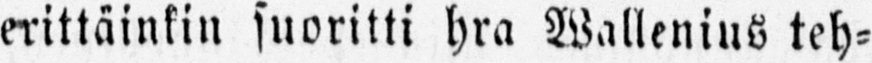erittäinkin suoritti hra Wallenius teh-
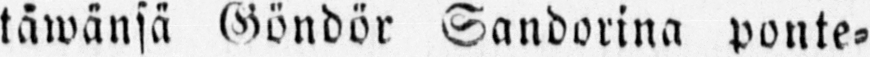täwänsä Göndör Sandorina ponte-
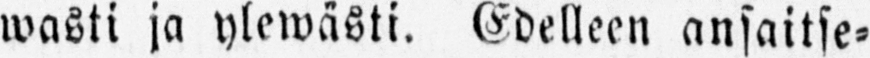wasti ja ylewästi. Edelleen ansaitse-
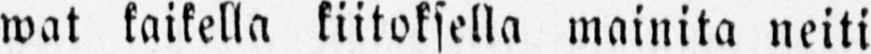wat kaikella kiitoksella mainita neiti
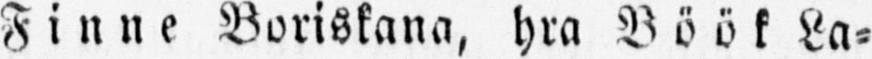Finne Boriskana, hra Böök La-
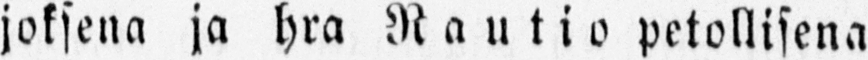joksena ja hra Rautio petollisena
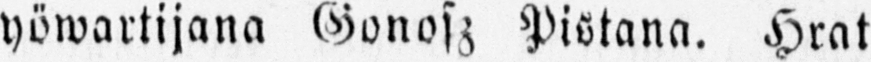yöwartijana Gonosz Pistana. Hrat
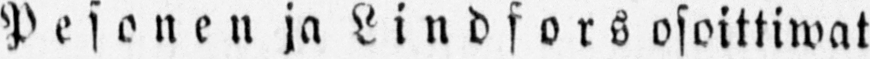Pesonen ja Lindfors osoittiwat
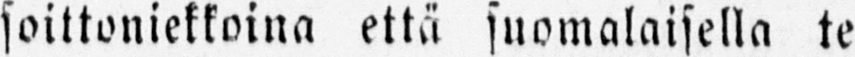soittoniekkoina että suomalaisella te-
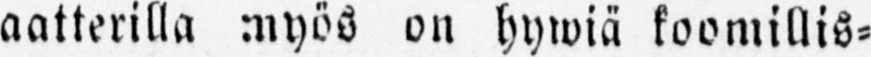aatterilla myös on hywiä koomillis-
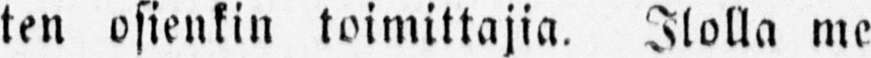ten osienkin toimittajia. Ilolla me
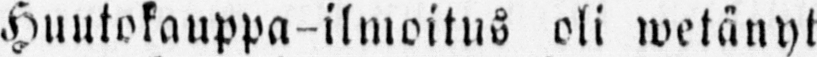Huutokauppa-ilmoitus oli wetänyt
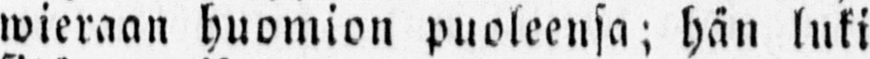wieraan huomion puoleensa; hän luki
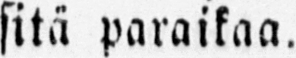sitä paraikaa.
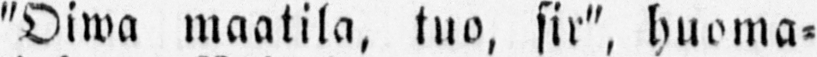"Oiwa maatila, tuo, sir", huoma-
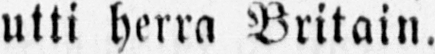utti herra Britain.
